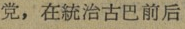党，在統治古巴前后
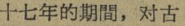十七年的期間，对古
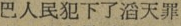巴人民犯下了滔天罪
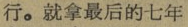行。就拿最后的七年
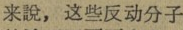来說，这些反动分子
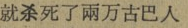就杀死了兩万古巴人
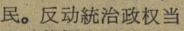民。反动統治政权当
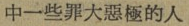中一些罪大恶極的人
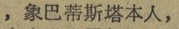，象巴蒂斯塔本人，
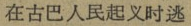在古巴人民起义时逃
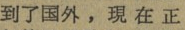到了国外，現 在 正
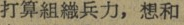打算組織兵力，想和
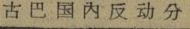古 巴 国 内 反 动 分
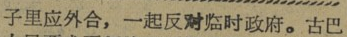子里应外合，一起反对临时政府。古巴
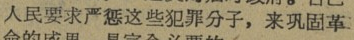人民要求严惩这些犯罪分子，来巩固革
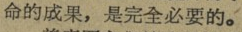命的成果，是完全必要的。
